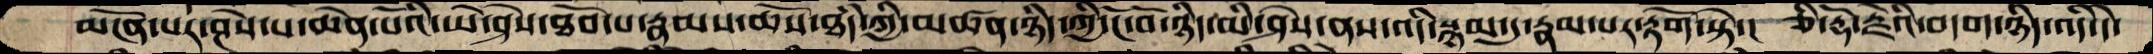མངོན་པར་ཤེས་པ་ཆེན་པོའི་ཡེ་ཤེས་ཐོབ་པ་རྣམས་ཆོས་ཐཾད་ཀྱི་མཚན་ཉིད་ཀྱི་ངོ་བོ་ཉིད་མི་ཤེས་ནས་འདི་སྙམ་དུ་རྣམ་པར་རྟོག་སྟེ་།  ཅི་རྡོ་རྗེའི་བདག་ཉིད་འདི་དེ་
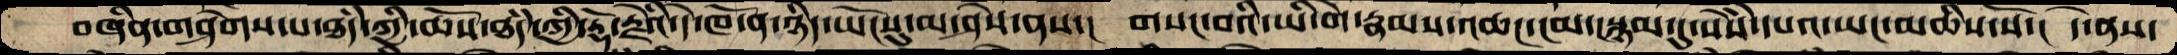བཞིན་གཤེགས་པ་ཐཾད་ཀྱི་ཆོས་ཐཾད་ཀྱི་རྡོ་རྗེའི་དེ་ཁོ་ན་ཉིད་ཡོངསུ་མ་ཤེས་ནས་།  གསང་བའི་ཡི་གེ་རྣམས་འཆང་ངམ་སྙམ་དུ་སེསཾ་དཔའ་ཡང་མཆིས་སོ་།  དེ་ནས་
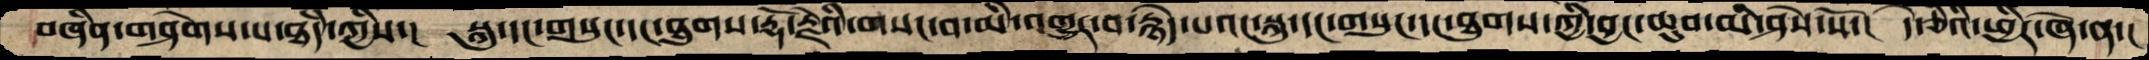བཞིན་གཤེགས་པ་ཐཾད་ཀྱིས་།  སྐུ་དང་གསུང་དང་ཐུགས་རྡོ་རྗེའི་གསང་བ་མི་འགྱུར་བ་རྙེད་པའང་སྐུ་དང་གསུང་དང་ཐུགས་ཀྱི་བྱང་ཆུབ་མི་ཤེས་སོ་།  དེ་ཅིའི་ཕྱིར་ཞེ་ན་།
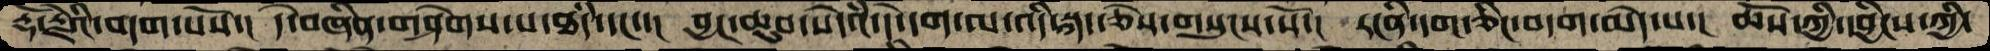རྡོ་རྗེའི་བདག་པོས་།  དེ་བཞིན་གཤེགས་པ་ཐཾད་དང་་།  བྱང་ཆུབ་སེདཾའ་དེ་དག་ལ་འདི་སྐད་ཅེས་གསུངས་སོ་།  རངིན་དག་ཅིང་བདག་མེད་པ་།  ཆོས་ཀྱི་དབྱིངས་ཀྱི་
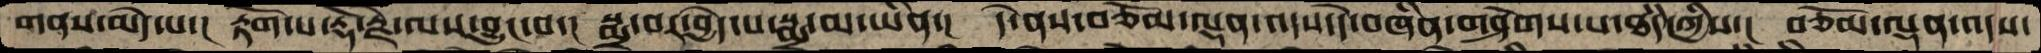གནས་མེད་པ་།  རྟོག་པ་རྡོ་རྗེ་ལས་བྱུང་བ་།  སྨྲ་བར་བྱེད་པ་སྨྲ་མ་ཡིན་།  དེ་ནས་བཅོམ་ལྡན་འདས་དེ་བཞིན་གཤེགས་པ་ཐཾད་ཀྱིས་།  བཅོམ་ལྡན་འདས་
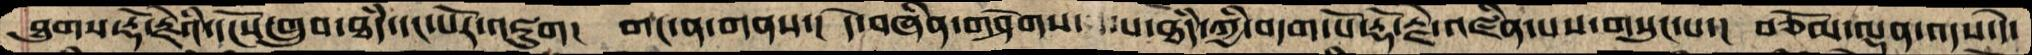ཐུགས་རྡོ་རྗེའི་དངོས་གྲུབ་ཐདཾ་དང་པོར་འཇུག།  གང་ན་གནས་།  དེ་བཞིན་གཤེགས་  པ་ཐདཾ་ཀྱི་བདག་པོ་རྡོ་རྗེ་འཛིན་པས་གསུང་པ་།  བཅོམ་ལྡན་འདས་དེ་
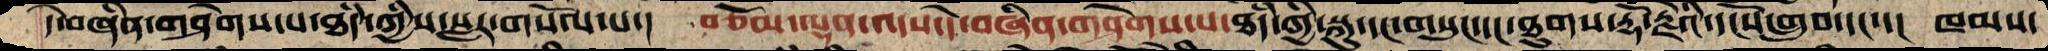དེ་བཞིན་གཤེགས་པ་ཐདཾ་ཀྱིས་སླར་གསོལ་པ་།  བཅོམ་ལྡན་འདས་དེ་བཞིན་གཤེགས་པ་ཐདཾ་ཀྱི་སྐུ་དང་གསུང་དང་ཐུགས་རྡོ་རྗེའི་དངོས་གྲུབ་དང་་།  ཁམས་
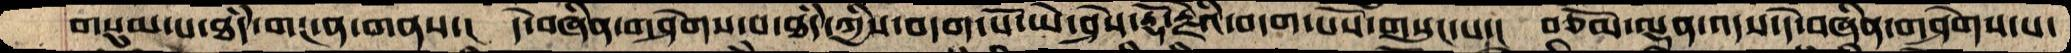གསུམ་པ་ཐདཾ་གང་ན་གནས་།  དེ་བཞིན་གཤེགས་པ་ཐདཾ་ཀྱིས་བདག་པོ་ཡེ་ཤེས་རྡོ་རྗེའི་བདག་པོས་གསུངས་པ་།  བཅོམ་ལྡན་འདས་དེ་བཞིན་གཤེགས་པ་
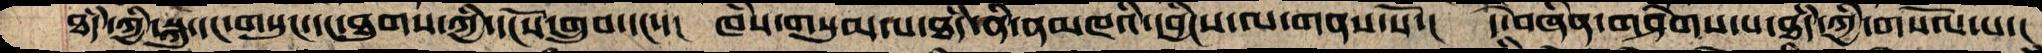ཐཾད་ཀྱི་སྐུ་དང་གསུང་དང་ཐུགས་ཀྱི་དངོས་གྲུབ་དང་་།  ཁཾས་གསུམ་ཐཾད་ནི་ནམཁའི་དབྱིངས་ལ་གནས་སོ་།  དེ་བཞིན་གཤེགས་པ་ཐཾད་ཀྱི་གསོལ་པ་།
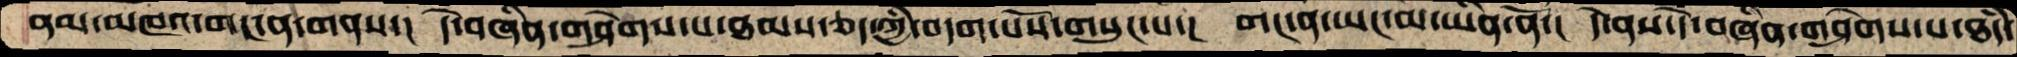ནམ་མཁའ་གང་ན་གནས་།  དེ་བཞིན་གཤེགས་པ་ཐམས་ཅད་ཀྱི་བདག་པོས་གསུངས་པ་།  གང་ན་ཡང་མ་ཡིན་ནོ་།  དེ་ནས་དེ་བཞིན་གཤེགས་པ་ཐཾད་
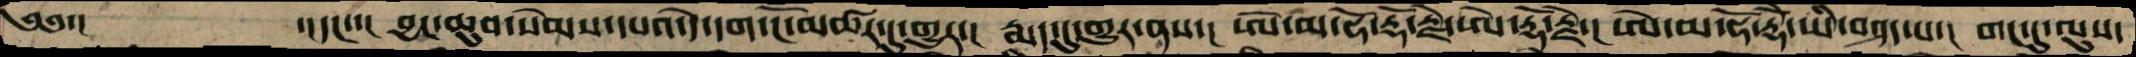༄༅་།      ་།དང་་།  བྱང་ཆུབ་སེམས་དཔའ་དེ་དག་ངོ་མཚར་དུ་གྱུར་།  རྨད་དུ་གྱུར་ནས་།  ཨེ་མ་ཧོ་རྡོ་རྗེ་ཨེ་རྡོ་རྗེ་།  ཨེ་མ་ཧོ་རྡོེ་ཡི་བཤད་པ་།  གང་དུ་ལུས་
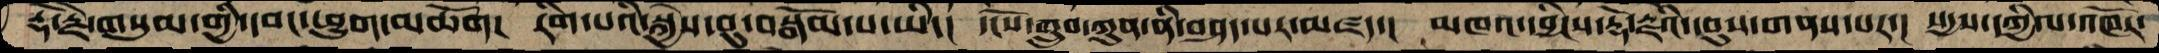རྡོ་རྗེ་གསུམ་གྱི་དབང་ཕྱུག་མཆོག།  རིག་པའི་སྐྱེས་བུ་བསྒོམ་པ་ཡི་།  དངོས་གྲུབ་ཀུན་ནི་བཤད་པར་མཛད་།  མཁའ་དབྱིངས་རྡོ་རྗེའི་དབུས་གནས་པར་།  སདྱས་དཀྱིལ་འཁོར་
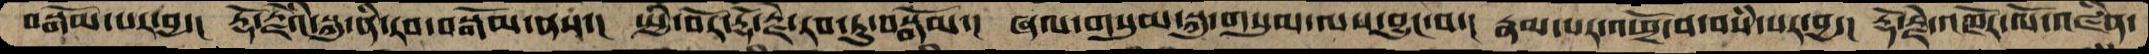བསྒོམ་པར་བྱ་།  རྡོ་རྗེའི་སྐུ་ནི་རབ་བསྒོམ་ནས་།  སྤྱི་བོར་རྡོ་རྗེ་རབ་ཏུ་བསྒོམ་།  ཞལ་གསུམ་སྐུ་གསུམ་ལས་བྱུང་བ་།  རྣམ་པར་འཕྲོ་བ་བསཾ་པར་བྱ་།  རྡོ་རྗེ་འཁོར་ལོ་འཛིན་
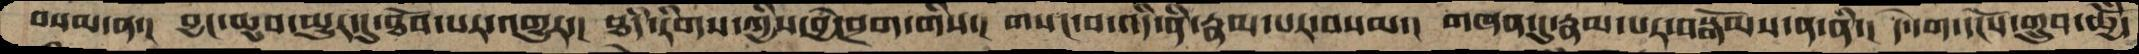བསམ་ན་།  བྱང་ཆུབ་མྱུར་དུ་ཐོབ་པར་འགྱུར་།  ཐཾད་རིགས་ཀྱིས་བྱེ་བྲག་གིས་།  གསང་བ་འདི་ནི་རྣམ་པར་བསམ་།  གཞན་དུ་རྣམ་པར་བསྒོམས་ན་ནི་།  དེ་དག་དངོས་གྲུབ་ཆྱོ་
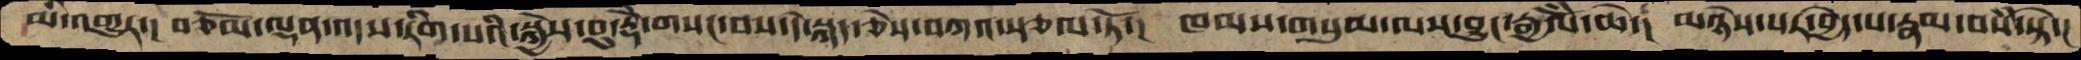མི་འགྱུར་།  བཅོམ་ལྡན་འདས་རིག་པའི་སྐྱེས་བུ་རྡོེ་གསང་བས་དེ་སྐད་ཅེས་བཀའ་སྩལ་ཏོ་།  ཁམས་གསུམ་ལས་བྱུང་རྒྱལོ་ཆེ་།  མཉེས་པར་བྱེད་པ་རྣམ་བསཾ་སྟེ་།
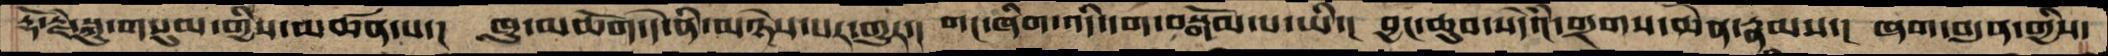རྡོ་རྗེ་སྐུ་གསུམ་གྱིས་མཚན་པ་།  ཁྱུ་མཆོག་དེ་ནི་མཉེས་པར་གྱུར་།  གང་ཞིག་འདི་དག་བསྒོམ་པ་ཡི་།   བྱང་ཆུབ་སེདཾའ་གྲགས་ཆེན་རྣམས་།  ཞག་བདུན་གྱིས་
